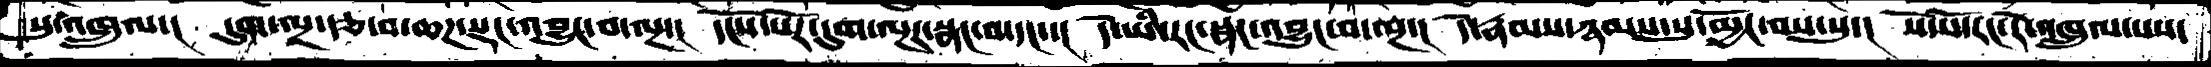སུ་འཁྲུལ་།  དུག་ལྔ་རྩ་བ་ཆཌ་སྡང་འབྱུང་བ་ལྔ་།  དངོས་པོར་དུག་ལྔར་སྣང་བ་དང་་།  དེ་ཡི་རང་སྣང་འབྱུང་བ་ལྔ་།  དེ་རྣམས་ཉམས་སུ་མྱོང་བས་སུ་།  སོ་སོ་རང་དེ་འཁྲུལ་པས་
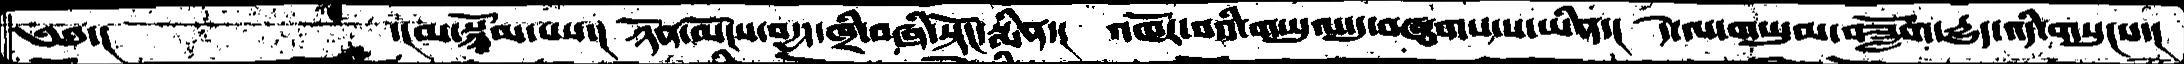༄༅་།      ་།མ་སྙོམ་པས་།  ཉོན་མོངས་བདྱད་ཁྲི་བཞི་སྟོང་སྨིན་།  འཁོར་བའི་གཡུལ་དུ་བཞུགས་པ་ཡིན་།  དེ་ལ་གཡུལ་བཟློག་དྱུད་འདི་གསུངས་།
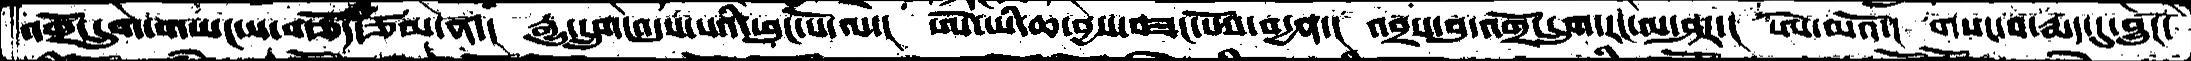འགྲོ་དྲུག་གཡང་ས་གཅོད་ཙམ་ན་།  རྒྱུ་དྲུག་འདུས་པའི་ཕུང་པོ་ལ་།  ཨོ་ཡི་ཆ་བྱས་བཟང་པོས་བདྱན་།  འབྲས་བུ་འགྲོ་དྲུག་རང་ལ་ཤར་།  ཨེ་མའོ་།  གསང་བ་རྨད་དུ་བྱུངོ་
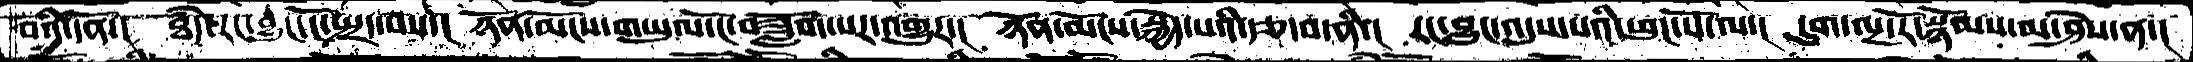བའི་དོན་།  ཐཾད་རང་བྱུང་ངོ་སྤྲད་བས་།   ཉོན་མོངས་གཡུལ་ངོ་བཟློག་པར་འགྱུར་།  ཉོན་མོངས་སྐྱེད་པའི་རྩ་བ་ནི་། རང་བྱུང་འདུས་པའི་ཕུང་པོ་ལ་།  དུག་ལྔ་རོ་སྙོམས་མ་ཤེས་ན་།
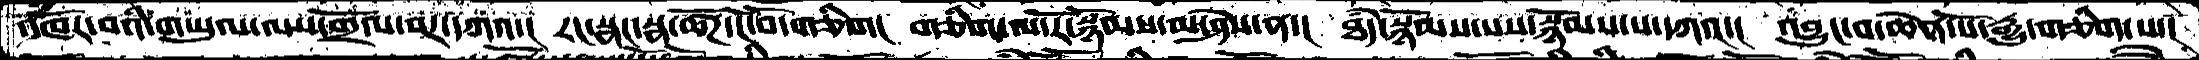འཁོར་བའི་གཡུལ་ལས་གྲོལ་བར་དགའ་།  རང་སྣང་སྣ་ཚོཌ་ངོ་བོ་གཅིག།  གཅིག་ལ་རོ་སྙོམས་མ་ཤེས་ན་།   ཐཾད་སྙོམས་པས་སྙོམས་པདཀའ་།   འབྱུང་བ་ཆེན་པོ་རྒྱུ་གཅིག་པ
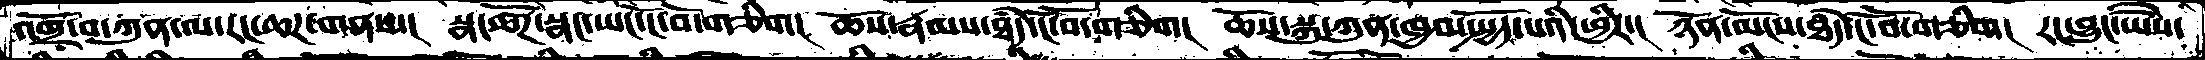འགྲོ་བ་ཀུན་ལ་རང་ཆཌ་གནས་།   སྣ་ཚོཌ་སྣང་ཡང་ངོ་བོ་གཅིག།   ཆོས་རྣམས་ཐཾད་ངོ་བོ་གཅིག་།  ཆོས་སྐུ་ཀུན་ཁྱབ་སྤྱོད་པའི་ཕྱིར་།   ཉོན་མོངས་ཐཾད་ངོ་བོ་གཅིག་།  རང་བྱུང་ཡཻས་
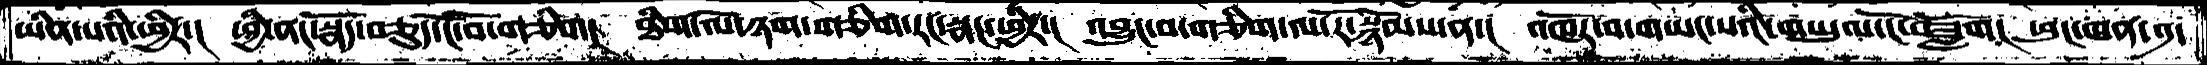ཡིན་པའི་ཕྱིར་།  ཕྱི་ནང་སྣད་བཅུད་ངོ་བོ་གཅིག་།  ཐིག་ལེ་ཉག་གཅིག་རང་སྣང་ཕྱིར་།  འབྱུང་བ་གཅིག་ལ་རོ་སྙོམས་ན་།  འཁོར་བ་གཡང་སའི་གཡུལ་ངོ་བཟློག།  ཕུངཁན་༡་
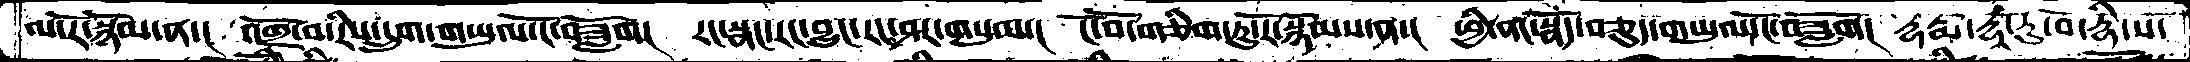ལ་རོ་སྙོམ་ན་།  འགྲོ་བ་རིས་དྲུག་གཡུལ་ངོ་བཟློག།  རང་སྣང་རང་བྱུང་རང་ཤར་གསུམ་།  ངོ་བོ་གཅིག་ཏུ་རོ་སྙོམས་ན་།  ཕྱི་ནང་སྣོད་བཅུད་གཡུལ་ངོ་བཟློག།  ཌྷརྨ་ཌྷཱ་ཏུ་བོ་ཌྷི་ས་
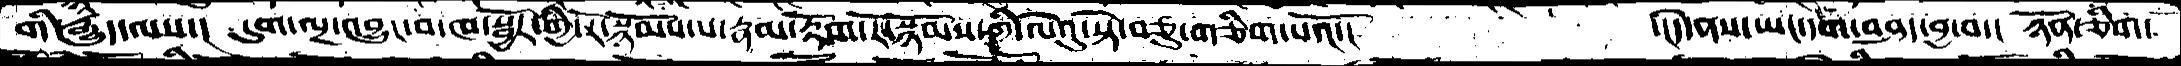གི་རྒྱུད་ལས་།  དུག་ལྔ་འབྱུང་བ་ཁ་སྦྱོར་གྱི་རོ་སྙོམས་པ་རྣམ་རྟོག་རོ་སྙོམས་ཀྱི་ལེའུ་སྟེ་བཅུ་གཅིག་པའོ་།    ་།དེ་ནས་ཡང་དག་བཤད་བྱ་བ་།  ཉོན་ཅིག་
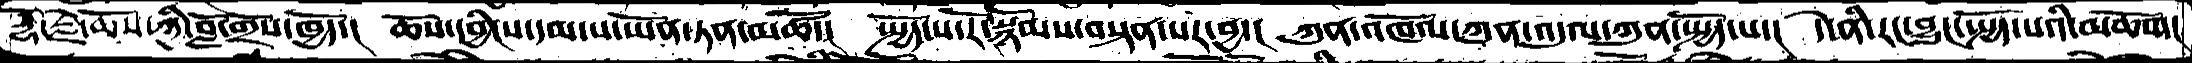རྡོ་རྗེ་ཆོས་ཀྱི་བློ་གྲོས་ཁྱོད་།  ཆོས་དབྱིངས་དམ་པ་ཡོན་ཏན་མཚོ་།  སྤྱོད་པ་རོ་སྙོམས་བསྟན་པར་བྱ་།  ཀུན་འཁོལ་ཀུན་འདུལ་ཀུན་སྤྱོད་པ་།  དེ་ནི་རང་བྱུང་སྤྱོད་པའི་མཆོག།
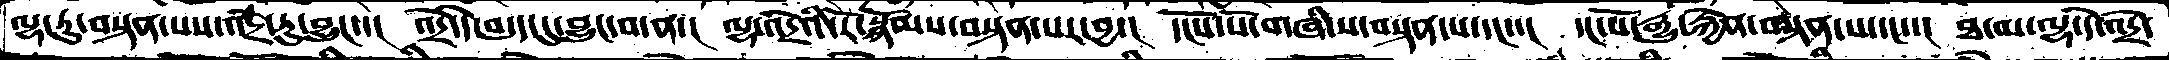ལྷ་རུ་བསྟན་པས་འདྲེ་རུ་བྱུང་་།  འདྲེ་དེ་བདུད་དུ་བྱུང་བ་ན་།  ལྷ་འདྲེའི་རོ་སྙོམས་བསྟན་པར་བྱ་།  དངོས་པོ་གཞི་ས་བསྟན་པ་དང་་།  དང་པོ་རྒྱུ་རྐྱེན་བསྟན་པ་དང་་།  ཐ་མ་ལྷ་དེ་འདྲེ་
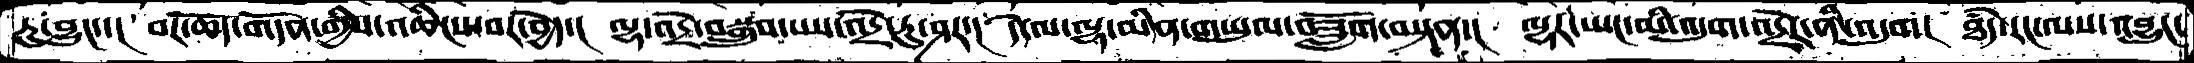རུ་བྱུང་་།  བར་ཆོད་གདོན་གྱིས་འཆིངས་བར་བྱེད་།  ལྷ་འདྲེ་བསྒྲུབ་པས་འདྲེ་རུ་ཤར་།  དེ་ལ་ལྷ་མིན་གཡུལ་བཟློག་བསྟན་།  ལྷར་ཡང་མི་འདུག་འདྲེར་ནི་འདུག།  ཐཾད་རང་ལས་འབྱུང་
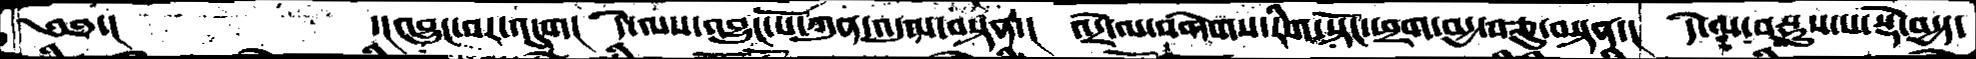༄༅་།        ་།འབྱུང་བར་འདུག།  དེ་ལས་འབྱུང་པོ་ཀུན་འདུལ་བསྟན་།  འདྲེ་ལ་བགེགས་རིག་སྟོང་ཕྲག་བདྱ་བཅུ་བསྟན་།  དེ་ལ་བསྡུས་པ་སྡེ་བདྱད་
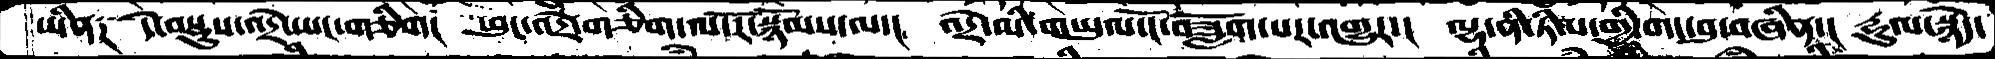ཡིན༑   དེ་བསྡུས་འདྲེ་ཡང་གཅིག།  ཕུང་འདྲེ་གཅིག་ལ་རོ་སྙོམས་ལ་།  འདྲེ་མི་གཡུལ་ངོ་བཟློག་པར་འགྱུར་།   ལྷ་ནི་ཏིལ་གྱི་གང་བུ་བཞིན་།  རྡུལ་སྙེད་
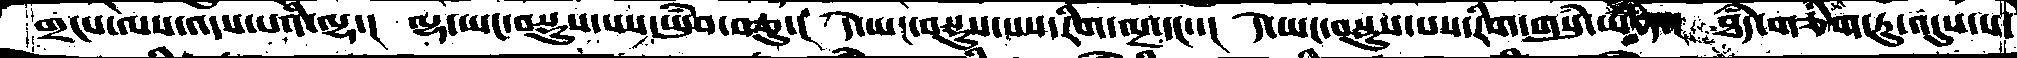གྲངས་ལས་འདས་པའི་ལྷ་།  ལྷ་ཡང་བསྡུས་པས་ཡུཾབ་བཅུ་།  དེ་ཡང་བསྡུས་པས་རིག་ལྔ་དང་་།  དེ་ཡང་བསྡུས་པས་རིག་གསུཾ་ཡིན་།  ཐཾད་གཅིག་ཏུ་འདུས་པ་
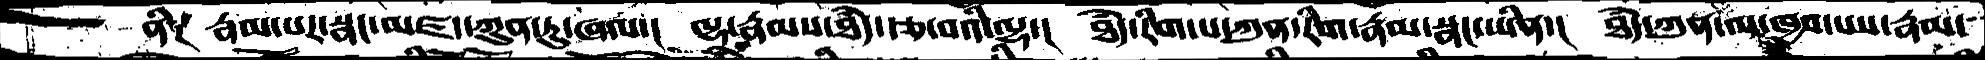ནི།  རྣམ་པར་སྣང་མཛད་ཀུན་ཏུ་ཞལ་།  ལྷ་རྣམས་ཐཾད་རྩ་བའི་ལྷ་།  ཐཾད་རིག་པ་ཀུན་རིག་རྣམ་སྣང་ཡིན་།  ཐཾད་ཀུན་ལ་ཁྱབ་པས་རྣམ་
